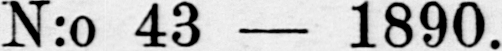N:o 43 — 1890.
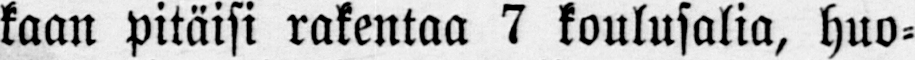kaan pitäisi rakentaa 7 koulusalia, huo-
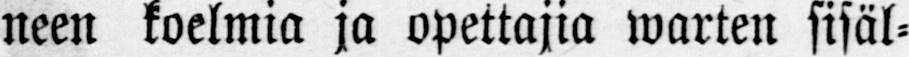neen koelmia ja opettajia warten sisäl-
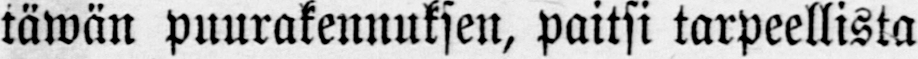täwän puurakennuksen, paitsi tarpeellista
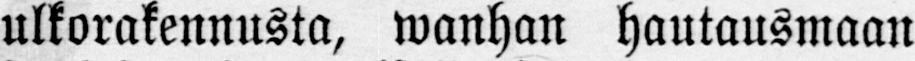ulkorakennusta, wanhan hautausmaan
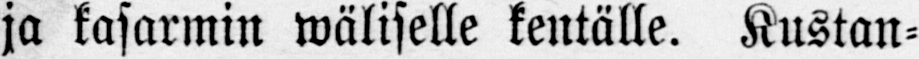ja kasarmin wäliselle kentälle. Kustan-
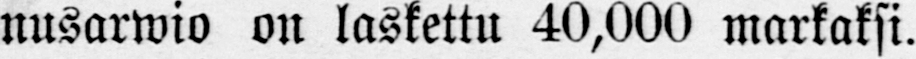nusarwio on laskettu 40,000 markaksi.
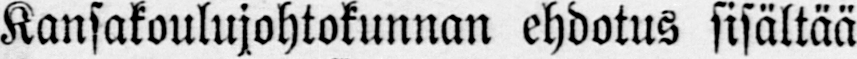Kansakoulujohtokunnan ehdotus sisältää
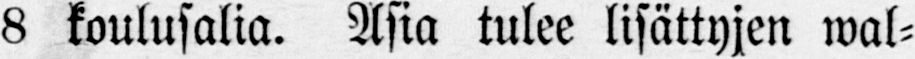8 koulusalia. Asia tulee lisättyjen wal-
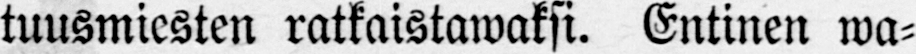tuusmiesten ratkaistawaksi. Entinen wa-
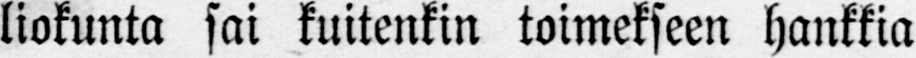liokunta sai kuitenkin toimekseen hankkia
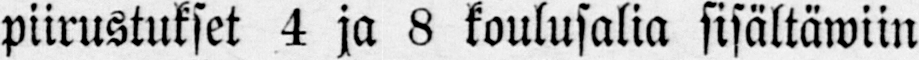piirustukset 4 ja 8 koulusalia sisältäwiin
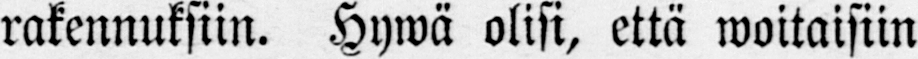rakennuksiin. Hywä olisi, että woitaisiin
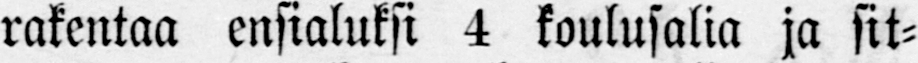rakentaa ensialuksi 4 koulusalia ja sit-
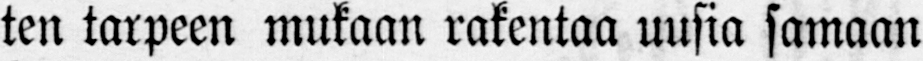ten tarpeen mukaan rakentaa uusia samaan
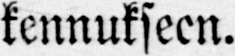kennukseen.
